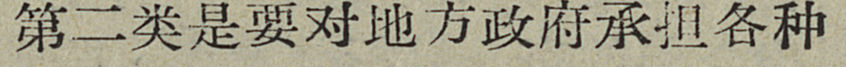第二类是要对地方政府承担各种
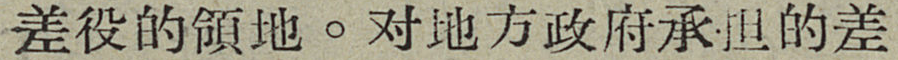差役的領地。对地方政府承担的差
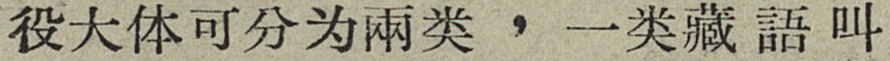役大体可分为兩类，一类藏語叫
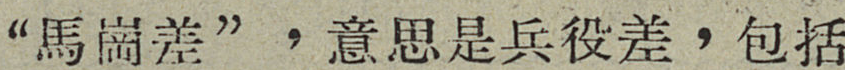“馬崗差”，意思是兵役差，包括
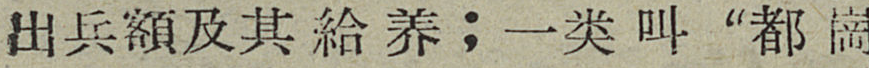出兵額及其給养；一类叫“都崗
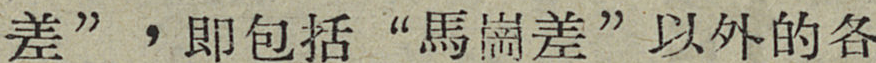差”，即包括“馬崗差”以外的各
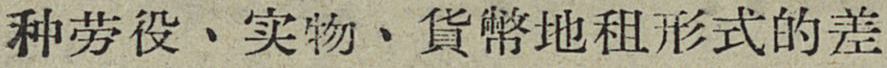种劳役、实物、貨幣地租形式的差
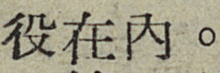役在内。
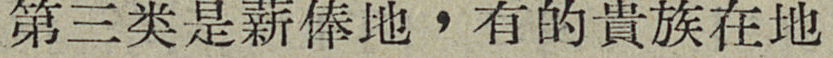第三类是薪俸地，有的貴族在地
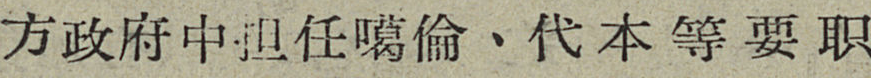方政府中担任噶倫、代本等要职
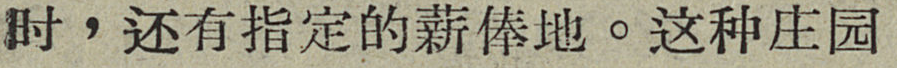时，还有指定的薪俸地。这种庄园
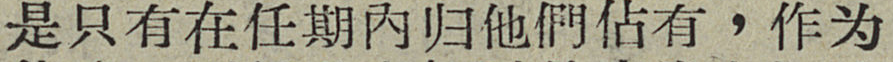是只有在任期内归他們佔有，作为
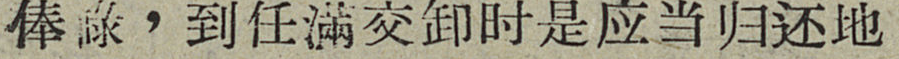俸祿，到任滿交卸时是应当归还地
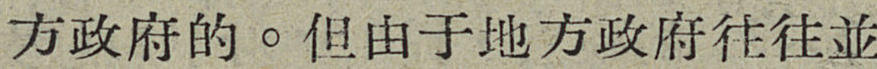方政府的。但由于地方政府往往並
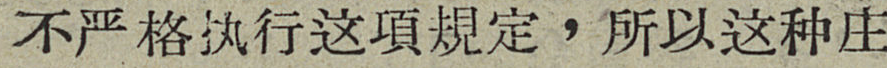不严格执行这項規定，所以这种庄
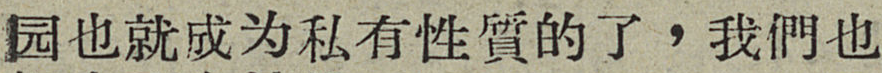园也就成为私有性質的了，我們也
